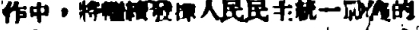作中，將繼續發揮人民民主統一戰綫的
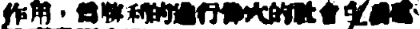作用，爲勝利的進行偉大的社會主義建
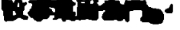設事業而奮鬥。
